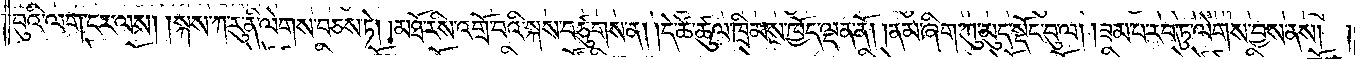བུའི་ལག་ངར་ལས། །སྐས་ཀ་རུ་ནི་ལེགས་བཅས་ཏེ། །མཐོ་རིས་འགྲོ་བའི་སྐས་བཙུགས་ན། །དེ་ཚེ་ཚུལ་ཁྲིམས་ཁྱོད་ལྡན་ནོ། །ནམ་ཞིག་ཀུ་མུད་སྡོང་བུ་ལ། །ཟམ་པ་རབ་ཏུ་ལེགས་བྱས་ནས། །
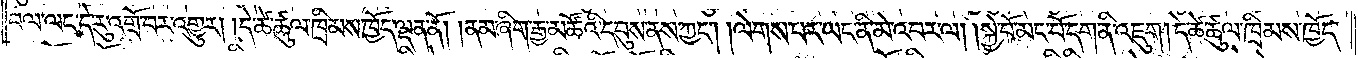བལ་ལང་དེ་རུ་འགྲོ་བར་འགྱུར། །དེ་ཚེ་ཚུལ་ཁྲིམས་ཁྱོད་ལྡན་ནོ། །ནམ་ཞིག་རྒྱ་མཚོའི་དབུས་ནས་ཀྱང༌། །ལེགས་པར་ཡང་ནི་མེ་འབར་ལ། །སྐྱེ་བོ་མང་པོ་དག་ནི་འཇུག །དེ་ཚེ་ཚུལ་ཁྲིམས་ཁྱོད་
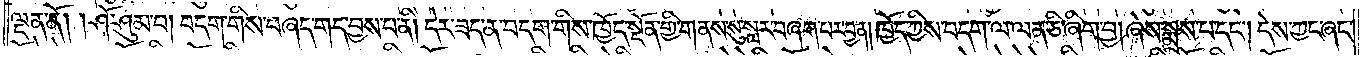ལྡན་ནོ། །ཤོ་ཤུམ་པ། བདག་གིས་བཞད་གད་བྱས་པ་ནི། དེར་ཟད་ན་བདག་གིས་ཁྱོད་སྔོན་གྱི་གནས་སུ་སླར་བཞག་པར་བྱ་ན། ཁྱོད་ཀྱིས་བདག་ལ་ལན་ཅི་ཞིག་བྱ། ཞེས་སྨྲས་པ་དང༌། དེས་ཀྱང་ཞང་
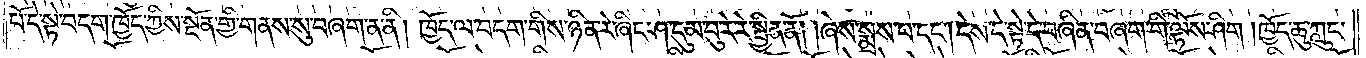པོ་དེ་སྟེ་བདག་ཁྱོད་ཀྱིས་སྔོན་གྱི་གནས་སུ་བཞག་ན་ནི། ཁྱོད་ལ་བདག་གིས་ཉིན་རེ་ཞིང་ཤུ་དུམ་བུ་རེ་རེ་སྦྱིན་ནོ། །ཞེས་སྨྲས་པ་དང༌། དེས་དེ་སྟེ་དེ་བཞིན་བཞག་གི་ལྟོས་ཤིག །ཁྱོད་ཆུ་ཀླུང་
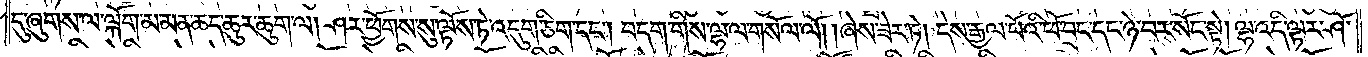དུ་ཞུགས་ལ་ལྐོག་མ་མན་ཆད་ཆུར་ཆུག་ལ། ཤར་ཕྱོགས་སུ་ལྟོས་ཏེ་འདུག་ཅིག་དང༌། བདག་གིས་ལྷ་ལ་གསོལ་ལོ། །ཞེས་ཟེར་ཏེ། དེས་རྒྱལ་པོའི་ཕོ་བྲང་དང་ཉེ་བར་སོང་སྟེ། ལྷ་འདི་ལྟར་ཤོ་
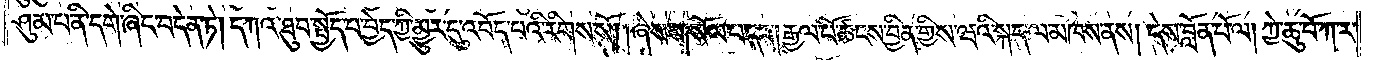ཤུམ་པ་ནི་དགེ་ཞིང་བདེན་ཏེ། དཀའ་ཐུབ་སྤྱོད་པ་བྱེད་ཀྱི་མྱུར་དུ་འབོད་པའི་རིགས་སོ། །ཞེས་གསོལ་པ་དང༌། རྒྱལ་པོ་ཚངས་བྱིན་གྱིས་ཝའི་སྐད་ལ་མཁས་ནས། དེས་བློན་པོ་ལ། ཀྱེ་ཆུ་བོ་ཀ་ར་
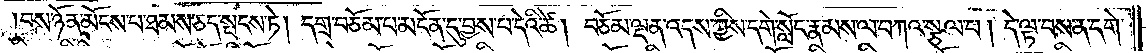བས་ཉོན་མོངས་པ་ཐམས་ཅད་སྤངས་ཏེ། དགྲ་བཅོམ་པ་མངོན་དུ་བྱས་པ་དེའི་ཚེ། བཅོམ་ལྡན་འདས་ཀྱིས་དགེ་སློང་རྣམས་ལ་བཀའ་སྩལ་པ། དེ་ལྟ་བས་ན་དགེ་
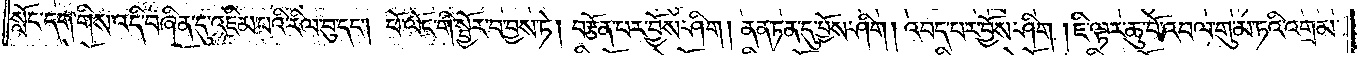སློང་དག་གིས་འདི་བཞིན་དུ་འཇིམ་པའི་རིལ་བུ་དང༌། ཕོ་ལོང་གི་སྦྱོར་བ་བྱས་ཏེ། བརྩོན་པར་བྱོས་ཤིག །ནན་ཏན་དུ་བྱོས་ཤིག །འབད་པར་བྱོས་ཤིག །ཇི་ལྟར་ཆུ་བོ་འབལ་གུ་མ་ཏའི་འགྲམ་
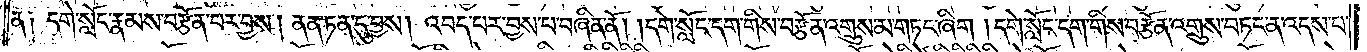ན༑ དགེ་སློང་རྣམས་བརྩོན་པར་བྱས། ནན་ཏན་དུ་བྱས། འབད་པར་བྱས་པ་བཞིན་ནོ། །དགེ་སློང་དག་གིས་བརྩོན་འགྲུས་མ་གཏང་ཞིག །དགེ་སློང་དག་གིས་བརྩོན་འགྲུས་བཏང་ན་འདས་པ་
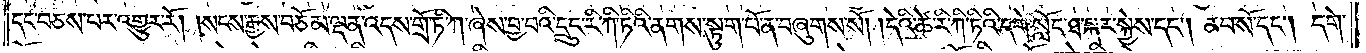དང་བཅས་པར་འགྱུར་རོ། །སངས་རྒྱས་བཅོམ་ལྡན་འདས་གྲོ་ཏི་ཀ་ཞེས་བྱ་བའི་དྲུང་རི་ཀི་ཏིའི་ནགས་སྟུག་པོ་ན་བཞུགས་སོ། །དེའི་ཚེ་རི་ཀི་ཏིའི་དགེ་སློང་ཐ་སྐར་སྐྱེས་དང༌། ནབ་སོ་དང༌། དགེ་
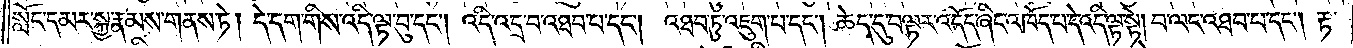སློང་དམར་སྐྱ་རྣམས་གནས་ཏེ། དེ་དག་གིས་འདི་ལྟ་བུ་དང༌། འདི་འདྲ་བ་འཐབ་པ་དང༌། འཐབ་ཏུ་འཇུག་པ་དང༌། ཆེད་དུ་བལྟར་འདོད་ཞིང་འཁོད་པ་དེ་འདི་ལྟ་སྟེ། བ་ལང་འཐབ་པ་དང༌། རྟ་
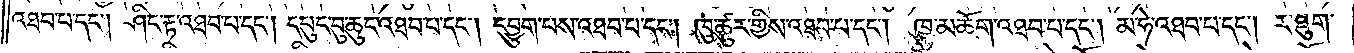འཐབ་པ་དང༌། ཤིང་རྟ་འཐབ་པ་དང༌། དཔུང་བུ་ཆུང་འཐབ་པ་དང༌། དབྱུག་པས་འཐབ་པ་དང༌། ཁུ་ཚུར་གྱིས་འཐབ་པ་དང༌། ཁྱུ་མཆོག་འཐབ་པ་དང༌། མ་ཧེ་འཐབ་པ་དང༌། ར་ཐུག་
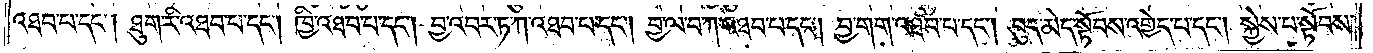འཐབ་པ་དང༌། ཐུག་རི་འཐབ་པ་དང༌། ཁྱི་འཐབ་པ་དང༌། བྱ་འབར་ཏ་ཀ་འཐབ་པ་དང༌། བྱ་ལ་བ་ཀ་འཐབ་པ་དང༌། བྱ་གག་འཐབ་པ་དང༌། བུད་མེད་སྟོབས་འགྱེད་པ་དང༌། སྐྱེས་པ་སྟོབས་
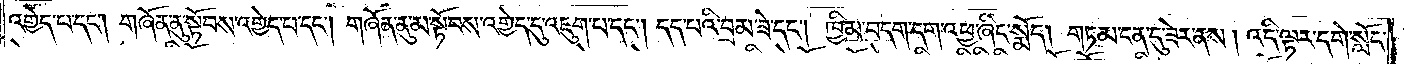འགྱེད་པ་དང༌། གཞོན་ནུ་སྟོབས་འགྱེད་པ་དང༌། གཞོན་ནུ་མ་སྟོབས་འགྱེད་དུ་འཇུག་པ་དང༌། དད་པའི་བྲམ་ཟེ་དང༌། ཁྱིམ་བདག་དག་འཕྱ་ཞིང་སྨོད། གཏམ་ངན་དུ་ཟེར་ནས། འདི་ལྟར་དགེ་སློང་
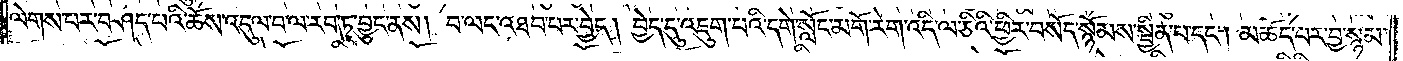ལེགས་པར་བཤད་པའི་ཆོས་འདུལ་བ་ལ་རབ་ཏུ་བྱུང་ནས། བ་ལང་འཐབ་པར་བྱེད། །བྱེད་དུ་འཇུག་པའི་དགེ་སློང་མགོ་རེག་འདི་ལ་ཅིའི་ཕྱིར་བསོད་སྙོམས་སྦྱིན་པ་དང༌། མཆོད་པར་བྱ་སྙམ་
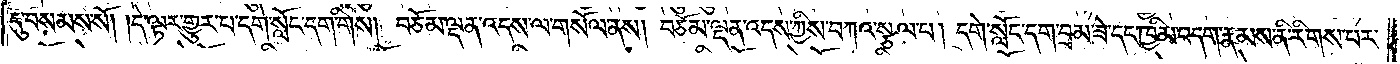དུ་བསམས་སོ། །དེ་ལྟར་གྱུར་པ་དགེ་སློང་དག་གིས། བཅོམ་ལྡན་འདས་ལ་གསོལ་ནས། བཅོམ་ལྡན་འདས་ཀྱིས་བཀའ་སྩལ་པ། དགེ་སློང་དག་བྲམ་ཟེ་དང་ཁྱིམ་བདག་རྣམས་ནི་རིགས་པར་
